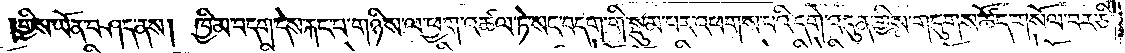གྱིས་ཡོན་བཤད་ནས། ཁྱིམ་བདག་དེས་རྐང་པ་གཉིས་ལ་ཕྱག་འཚལ་ཏེ་སང་བདག་གི་སྡུམ་པར་འཕགས་པའི་དགེ་འདུན་གྱིས་གདུགས་ཚོད་གསོལ་བར་ཅི་
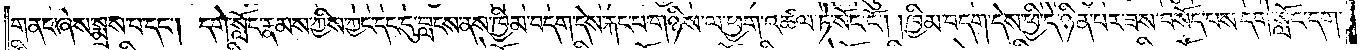གནང་ཞེས་སྨྲས་པ་དང༌། དགེ་སློང་རྣམས་ཀྱིས་ཀྱང་དང་དུ་བླངས་ནས་ཁྱིམ་བདག་དེས་རྐང་པ་གཉིས་ལ་ཕྱག་འཚལ་ཏེ་སོང་ངོ༌། །ཁྱིམ་བདག་དེས་ཕྱི་དེ་ཉིན་པར་ཟས་བསོད་པས་དགེ་སློང་དག་
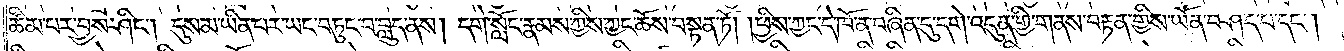ཚིམ་པར་བྱས་ཤིང༌། དུས་མ་ཡིན་པར་ཡང་བཏུང་བ་བླུད་ནས། དགེ་སློང་རྣམས་ཀྱིས་ཀྱང་ཆོས་བསྟན་ཏོ། །ཕྱིས་ཀྱང་དེ་ཁོ་ན་བཞིན་དུ་དགེ་འདུན་གྱི་གནས་བརྟན་གྱིས་ཡོན་བཤད་པ་དང༌།
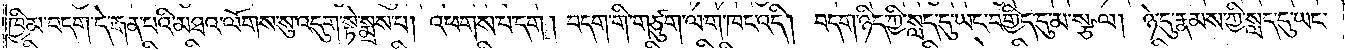ཁྱིམ་བདག་དེ་རྒན་པའི་མཐའ་ལོགས་སུ་འདུག་སྟེ་སྨྲས་པ། འཕགས་པ་དག ། བདག་གི་གཙུག་ལག་ཁང་འདི། བདག་ཉིད་ཀྱི་སླད་དུ་ཡང་བགྱིད་དུ་མ་སྩལ། ཉེ་དུ་རྣམས་ཀྱི་སླད་དུ་ཡང་
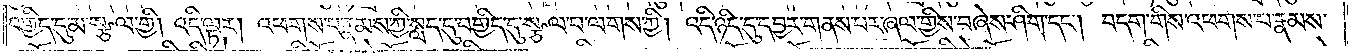བགྱིད་དུ་མ་སྩལ་གྱི། འདི་ལྟར། འཕགས་པ་རྣམས་ཀྱི་སླད་དུ་བགྱིད་དུ་སྩལ་པ་ལགས་ཀྱི། འདི་ཉིད་དུ་དབྱར་གནས་པར་ཞལ་གྱིས་བཞེས་ཤིག་དང༌། བདག་གིས་འཕགས་པ་རྣམས་
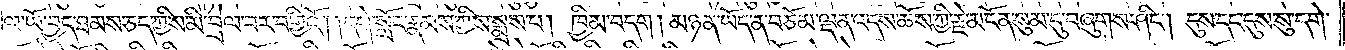ལ་ཡོ་བྱད་ཐམས་ཅད་ཀྱིས་མི་བྲེལ་བར་བགྱིའོ། །དགེ་སློང་རྣམས་ཀྱིས་སྨྲས་པ། ཁྱིམ་བདག །མཉན་ཡོད་ན་བཅོམ་ལྡན་འདས་ཆོས་ཀྱི་རྗེ་མངོན་སུམ་དུ་བཞུགས་ཤིང༌། དུས་དང་དུས་སུ་དགེ་
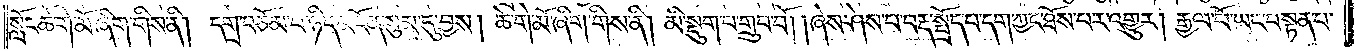སློང་ཆེ་གེ་མོ་ཞིག་གིས་ནི། དགྲ་བཅོམ་པ་ཉིད་མངོན་སུམ་དུ་བྱས། ཆེ་གེ་མོ་ཞིག་གིས་ནི། མི་སྡུག་པ་གྲུབ་བོ། །ཞེས་ཤེས་པ་བརྡ་སྤྲོད་པ་དག་ཀྱང་ཐོས་པར་འགྱུར། རྒྱལ་པོ་ཡང་བསྟན་པ་
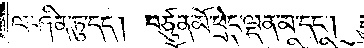ལ་ཤིན་ཏུ་དད། བཙུན་མོ་ཕྲེང་ལྡན་མ་དང༌།<gap>རྒྱལ་རིགས་དབྱར་ཚུལ་མ་དང༌། བླ་མཁྱེན་དྲང་སྲོང་བྱིན་དང༌། རྙིང་པ་དང༌། དགེ་བསྙེན་མ་ས་ག་དང༌། རི་དྭགས་འཛིན་གྱི་མ་དང༌། གཞན་
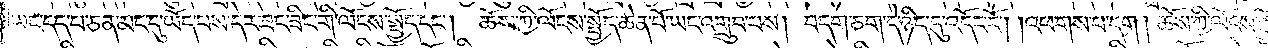ཡང་དད་པ་ཅན་མང་དུ་ཡོད་པས་དེར་ཟང་ཟིང་གི་ལོངས་སྤྱོད་དང༌། ཆོས་ཀྱི་ལོངས་སྤྱོད་ཆེན་པོ་ཡང་འགྲུབ་པས། བདག་ཅག་དེ་ཉིད་དུ་འདོང་ངོ༌། །འཕགས་པ་དག །ཆོས་ཀྱི་ལོངས་སྤྱོད་ནི། འཕགས་
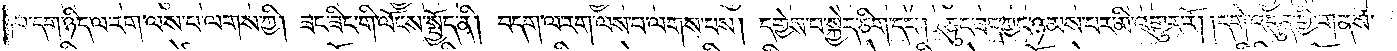པ་དག་ཉིད་ལ་རག་ལས་པ་ལགས་ཀྱི། ཟང་ཟིང་གི་ལོངས་སྤྱོད་ནི། བདག་ལ་རག་ལས་པ་ལགས་པས། དགྱེས་པ་སྐྱེད་ཅིག་དང༌། ཅུང་ཟད་ཀྱང་ཉམས་པར་མི་འགྱུར་རོ། །དགེ་འདུན་གྱི་གནས་
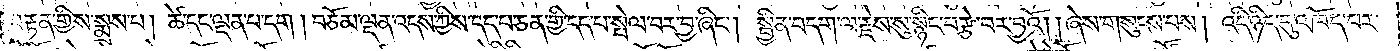བརྟན་གྱིས་སྨྲས་པ། ཚེ་དང་ལྡན་པ་དག །བཅོམ་ལྡན་འདས་ཀྱིས་དད་པ་ཅན་གྱི་དད་པ་སྤེལ་བར་བྱ་ཞིང༌། སྦྱིན་བདག་ལ་རྗེས་སུ་སྙིང་བརྩེ་བར་བྱའོ། །ཞེས་གསུངས་པས། འདི་ཉིད་དུ་འཁོད་པར་
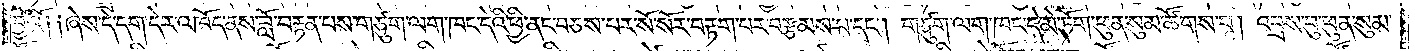བྱའོ༑ ༑ཞེས་དེ་དག་དེར་འཁོད་ནས་བློ་བརྟན་པས་གཙུག་ལག་ཁང་དེའི་ཕྱི་ནང་བཅས་པར་སོ་སོར་བརྟག་པར་བརྩམས་པ་དང༌། གཙུག་ལག་ཁང་དེ་མེ་ཏོག་ཕུན་སུམ་ཚོགས་པ། འབྲས་བུ་ཕུན་སུམ་
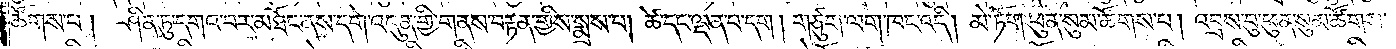ཚོགས་པ། ཤིན་ཏུ་དགའ་བར་མཐོང་ནས་དགེ་འདུན་གྱི་གནས་བརྟན་གྱིས་སྨྲས་པ། ཚེ་དང་ལྡན་པ་དག །གཙུག་ལག་ཁང་འདི། མེ་ཏོག་ཕུན་སུམ་ཚོགས་པ། འབྲས་བུ་ཕུན་སུམ་ཚོགས་
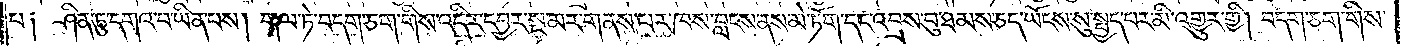པ༑ ཤིན་ཏུ་དགའ་བ་ཡིན་པས། གལ་ཏེ་བདག་ཅག་གིས་འདིར་དབྱར་སྔ་མར་གནས་པར་ཁས་བླངས་ནས་མེ་ཏོག་དང་འབྲས་བུ་ཐམས་ཅད་ཡོངས་སུ་སྤྱད་པར་མི་གྱུར་གྱི། བདག་ཅག་གིས་
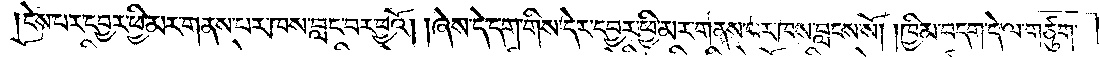ངེས་པར་དབྱར་ཕྱི་མར་གནས་པར་ཁས་བླང་བར་བྱའོ། །ཞེས་དེ་དག་གིས་དེར་དབྱར་ཕྱི་མར་གནས་པར་ཁས་བླངས་སོ། །ཁྱིམ་བདག་དེ་ལ་གཙུག་
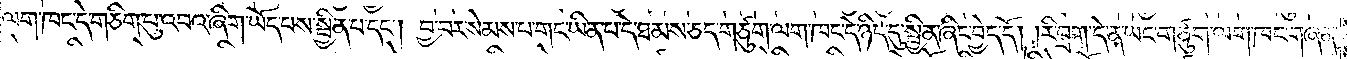ལག་ཁང་དེ་གཅིག་པུ་འབའ་ཞིག་ཡོད་པས་སྦྱིན་པ་དང༌། བྱ་བར་སེམས་པ་གང་ཡིན་པ་དེ་ཐམས་ཅད་གཙུག་ལག་ཁང་དེ་ཉིད་དུ་སྦྱིན་ཞིང་བྱེད་དོ། །རི་བྲག་དེ་ན་ཡང་གཙུག་ལག་ཁང་གཞན་
